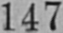147
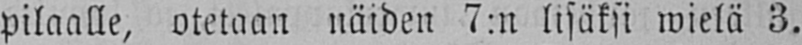pilaalle, otetaan näiden 7:n lisäksi wielä 3.
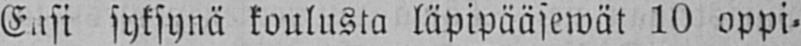Ensi syksynä kaulusta läpipääsewät 10 oppi-
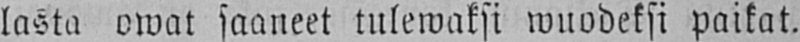lasta owat saaneet tulewaksi wuodeksi paikat.
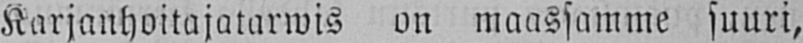Karjanhoitajatarwis on maassamme suuri,
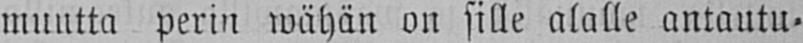muutta perin wähän on sille alalle antautu-
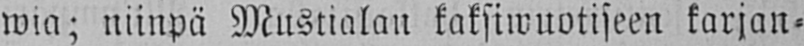wia; niinpä Mustialan kaksiwuotiseen karjan-
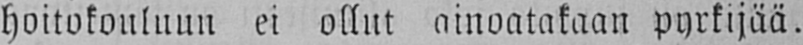hoitokouluun ei ollut ainoatakaan pyrkijää.
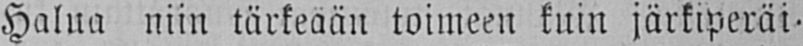Halua niin tärkeään toimeen kuin järkiperäi-
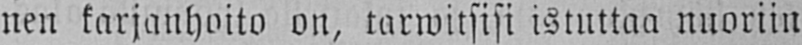nen karjanhoito on, tarwitsisi istuttaa nuoriin
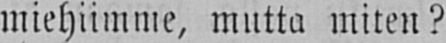miehiimme, mutta miten?
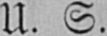U. S.
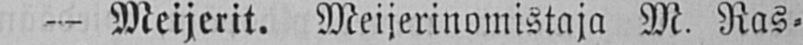— Meijerit. Meijerinomistaja M. Ras-
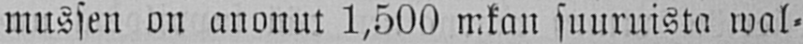mussen on anonut 1,500 mkan suuruista wal-
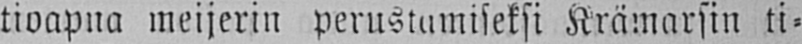tioapna meijerin perustamiseksi Krämarsin ti-
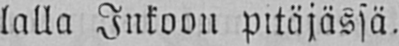lalla Inkoon pitäjässä.
